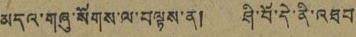མདའ་གཞུ་སོགས་ལ་བལྟས་ན། ཤི་བོ་དེ་ནི་འཐབ
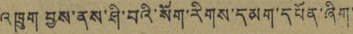འཁྲུག བྱས་ནས་ཤི་བའི་སོག་རིགས་དམག་དཔོན་ཞིག་
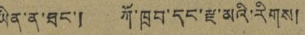ཡིན་ན་ཐང་། ཀོ་ཁྲབ་དང་རྫ་མའི་རིགས།
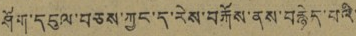ཤིག་དངུལ་བཅས་ཀྱང་ད་རེས་བརྐོས་ནས་བརྙེད་པའི་
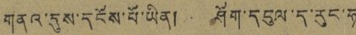གནའ་དུས་དངོས་པོ་ཡིན། ཤོག་དངུལ་ད་རུང་ཧ
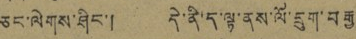ཅང་ལེགས་ཤིང་། དེ་ནི་ད་ལྟ་ནས་ལོ་དྲུག་བརྒྱ
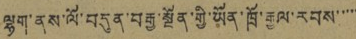ལྷག་ནས་ལོ་བདུན་བརྒྱ་སྔོན་གྱི་ཡོན་ཁྲོ་རྒྱལ་རབས་་་་་
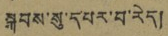སྐབས་སུ་དཔར་བ་རེད།
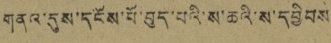གནའ་དུས་དངོས་པོ་བུད་པའི་ས་ཆའི་ས་དབྱིབས
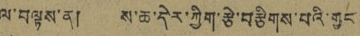ལ་བལྟས་ན། ས་ཆ་དེར་ཀྱིག་རྩེ་བརྩིགས་པའི་གྱང
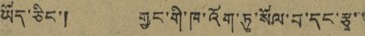ཡོད་ཅིང་། གྱང་གི་ཁ་འོག་ཏུ་སོལ་བ་དང་རྩྭ་་
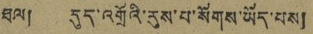ཐལ། དུད་འགྲོའི་རུས་པ་སོགས་ཡོད་པས།
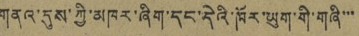གནའ་དུས་ཀྱི་མཁར་ཞིག་དང་དེའི་ཁོར་ཡུག་གི་གཞི་་་
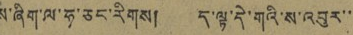ས་ཞིག་ལ་ཧ་ཅང་རིགས། ད་ལྟ་དེ་གའི་ས་འབུར་་
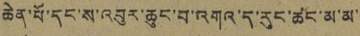ཆེན་པོ་དང་ས་འབུར་ཆུང་བ་འགའ་ད་རུང་ཚང་མ་མ་
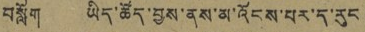བསློག ཡོད་ཚོད་བྱས་ནས་མ་འོངས་པར་ད་རུང
